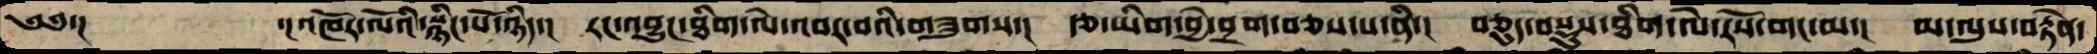༄༅་།       ་། འཁོར་ལོའི་སྙིང་པོ་ཉིད་།  རང་འབྱུང་ཐིག་ལེ་འབར་བའི་གཟུགས་།  རྩ་ཡིག་བྱེ་བྲག་བཅས་པ་ནི་།  བཅུད་བསྡུས་ཐིག་ལེ་རོས་གང་མ་།  མ་ལུས་བརྟེན་
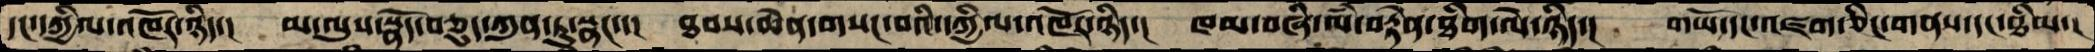དང་དཀྱིལ་འཁོར་ཉིད་།  མ་ལུས་སྣོད་བཅུད་ཀུན་ཏུ་སྣང་་།  ཐབས་ཆེན་གསང་བའི་དཀྱིལ་འཁོར་ཉིད་།  ཁམ་བཞི་ལཾ་བརྟེན་ཐིག་ལེ་ཉིད་།  གཡོ་དང་འཛག་ཅིང་གནས་དང་ཐིམ་།
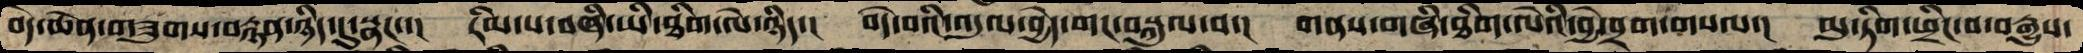བདེ་ཆེན་གཟུགས་བརྙན་ཉིད་དུ་སྣང་་།  རིམ་པ་བཞི་ཡི་ཐིག་ལེ་ཉིད་།  བདེ་བའི་འདུལ་བྱེད་གང་བསྐུལ་བ་།  གནས་གཞི་ཐིག་ལེའི་བྱེ་བྲག་གསལ་།  མུ་ཏིག་ཕྲིང་བ་བརྒྱུས་
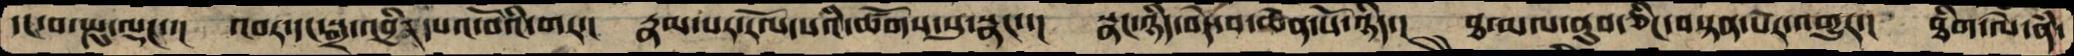དང་བ་སྤུ་ལྡང་་།  འབར་དང་སྒྲ་འབྱིན་དཔའ་བོའི་གར་།  རྣམ་པར་རོལ་པའི་ཚོགས་སུ་སྣང་་།  སྣང་ཉིད་བདེ་བ་ཆེན་པོ་ཉིད་།  ཐ་མལ་ནུབ་ཅིང་བསྟན་པར་འགྱུར་།  ཐིག་ལེ་ནཾ
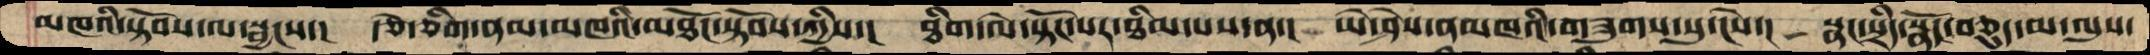མཁའི་སྟོབས་ལ་སྦྱངས་།  རྩེ་ཅིག་ནམ་མཁའི་མཐོང་སྟོབས་ཀྱིས་།  ཐིག་ལེ་སྟོང་པར་ཐིམ་པས་ན་།  ཡེ་ཤེས་ནམ་ཁའི་གཟུགས་སུ་ངེས་། སྣང་སྲིད་སྣོད་བཅུད་མ་ལུས་
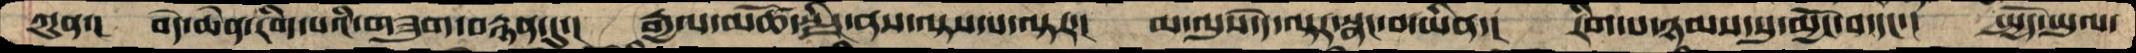ཀུན་།  བདེ་ཆེན་རིག་པའི་གཟུག་བརྙན་དུ་།  རྒྱལ་མཚོ་སྫིང་ནས་ལྟས་པ་ལྟར་།  མ་ལུས་དེ་ལྟར་སྣང་བ་ཡིན་།  རིག་པ་ཉམས་སུ་མྱོང་བ་དང་།  སྤྱོད་ཡུལ་
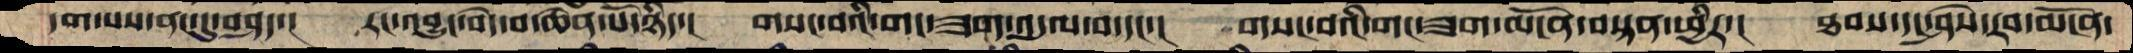དག་པས་ནང་དུ་བཤད་།  རང་འབྱུང་བདེ་བ་ཆེན་པོ་ཉིད་།  གསང་བའི་གང་ཟག་འདུལ་བ་དང་།  གསང་བའི་གང་ཟག་མངོན་བསྟན་ཕྱིར་།  ཐབས་དང་ཤེས་རབ་མངོན་
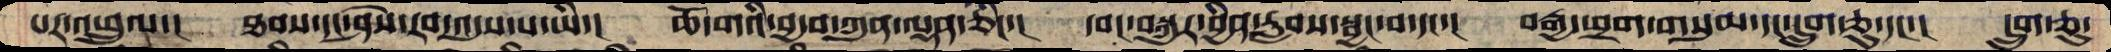པར་འཕྲུལ་།  ཐབས་དང་ཤེས་རབ་འདུས་པ་ཡི་།  ཆོ་གའི་བྱ་བ་ཀུན་ལྡན་ཅིང་།  དབང་བསྐུར་བྱིན་རླབས་སྦྱང་བ་དང་།  བརྒྱ་ཕྲག་གསུམ་དང་དྲུག་ཅུ་དང་།  དྲུག་ཅུ་
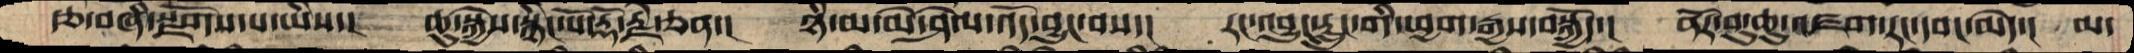རྩ་བཞི་སྫོགས་པ་ཡིས་།  ཆུ་སྐྱེས་སྙིང་པོ་རྡོ་རྗེ་ཅན་།  ཉི་མ་མེ་ཤེལ་འོད་བྱུང་བས་།  རང་འབྱུང་རླུང་གི་ཕྱག་རྒྱས་བསྐྱོད་།  ནོར་བུ་ཆུ་འཛག་རང་དབང་མེད་། མ་
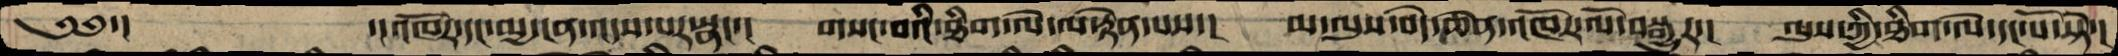༄༅་།     ་།འཁོར་དང་མྱ་ངན་འདས་པར་སྣང་།  གསང་བའི་ཐིག་ལེ་ལ་རྟེན་པས་།  མ་ལུས་བདེ་ཆེན་འཁོར་ལོ་བསྒྱུར་།  ལུས་ཀྱི་ཐིག་ལེ་དང་པོ་སྟེ་།
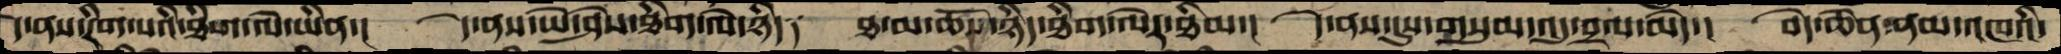དེ་ནས་རིགས་པའི་ཐིག་ལེ་ཡིན་།  དེ་ནས་ཡེ་ཤེས་ཐིག་ལེ་ཉིད་།  ཐ་མ་ཆོས་ཉིད་ཐིག་ལེར་ཐིམ་།  དེ་ནས་དུས་གསུམ་འདུ་བྲལ་མེད་།  བདེ་ཆེན་ནམ་མཁའི་
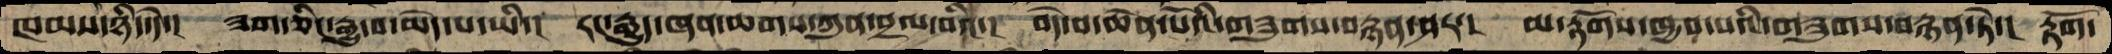ཁམས་ཉིད་དེ་།  ཟག་ཅིང་རྒྱུ་བ་མེད་པ་ཡི་།  རང་རྒྱུད་ཞན་ཆགས་ཀུན་བྲལ་བའི་།  བདེ་བ་ཆེན་པོའི་གཟུགས་བརྙན་ཤར་།  མ་རྟོགས་ཁྱབ་པའི་གཟུགས་བརྙན་ཏེ་།  རྟོག་
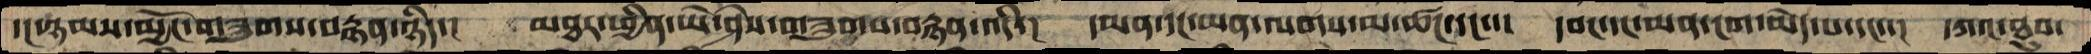དང་ཉམས་མྱོང་གཟུགས་བརྙན་ཉིད་།  མཐར་ཕྱིན་ཡེ་ཤེས་གཟུགས་བརྙན་འདི་།  དམན་དང་ཡན་ལགས་མ་ཚང་དང་་།  དབང་དང་མན་ངག་མེད་པ་དང་་།  དཀའ་ཐུབ་
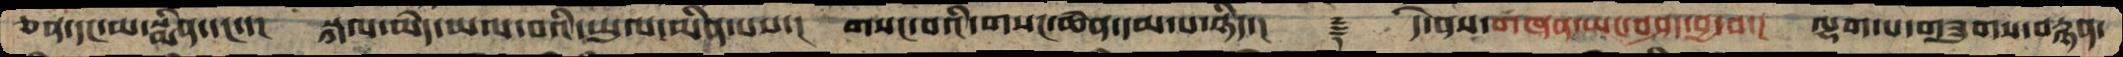ཅན་དང་མ་སྨིན་དང་་།  སྐལ་མེད་ཡལ་བའི་ཡུལ་མིན་པས་།  གསང་བའི་གསང་ཆེན་དམ་པ་ཉིད་།    ࿑   དེ་ནས་གཞན་ཡང་བཤད་བྱ་བ་།  ལྷག་པ་གཟུགས་བརྙན་
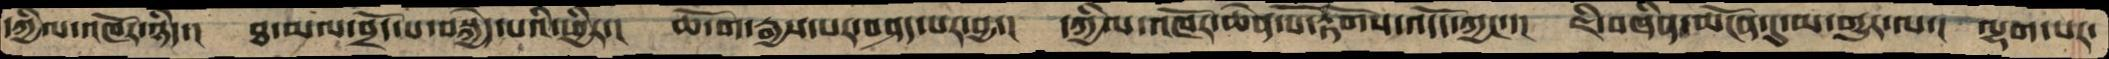དཀྱིལ་འཁོར་ཉིད་།  ཐ་མལ་བྲོད་པ་བསྐྱེད་པའི་ཕྱིར་།  ཆོ་ག་རྒྱས་པར་བཤད་པར་བྱ་།  དཀྱིལ་འཁོར་ཆེན་པོ་རྟོགས་འདོད་ཀྱང་་།  ཇི་བཞིན་མངོན་དུ་མ་གྱུར་ལ་།  ལྷག་པར་
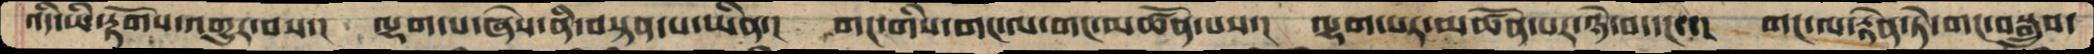འདི་ཡི་རྟོགས་འགྱུར་བས་།  ལྷག་པ་ཞེས་ནི་བསྟན་པ་ཡིན་།  གང་གིས་གང་ལ་གང་མཚོན་པས་།  ལྷག་པར་མཚོན་པར་ཉེ་བ་དང་་།  གང་ལ་རྟེན་ཏེ་གང་བསྒྲུབ་
